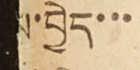་བྱེད་་་
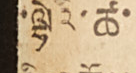་ལྟེའི་ཚ་
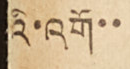འི་འགོ་་
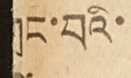ང་བའི་
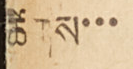ཚིགས་་་
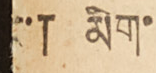ང་། མིག་
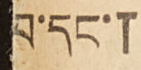བ་དང་།
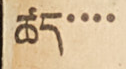ཚད་་་་
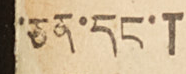་ཅན་དང་།
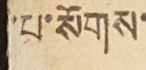་པ་སོགས་
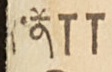་ནོ༎
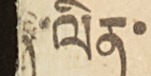་ལིན་
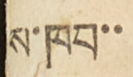ས་ཁབ་་
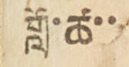གློ་ཚ་་
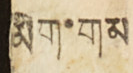མིག་གམ
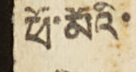ཕོ་མོའི་
